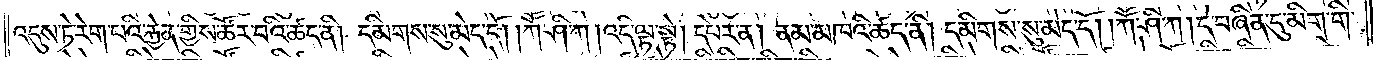འདུས་ཏེ་རེག་པའི་རྐྱེན་གྱིས་ཚོར་བའི་ཚད་ནི། དམིགས་སུ་མེད་དོ། །ཀཽ་ཤི་ཀ། འདི་ལྟ་སྟེ། དཔེར་ན། ནམ་མཁའི་ཚད་ནི། དམིགས་སུ་མེད་དོ། །ཀཽ་ཤི་ཀ། དེ་བཞིན་དུ་མིག་གི་
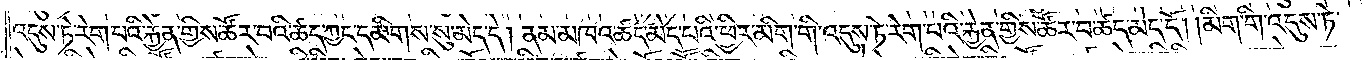འདུས་ཏེ་རེག་པའི་རྐྱེན་གྱིས་ཚོར་བའི་ཚད་ཀྱང་དམིགས་སུ་མེད་དེ། ནམ་མཁའ་ཚད་མེད་པའི་ཕྱིར་མིག་གི་འདུས་ཏེ་རེག་པའི་རྐྱེན་གྱིས་ཚོར་བ་ཚད་མེད་དོ། །མིག་གི་འདུས་ཏེ་
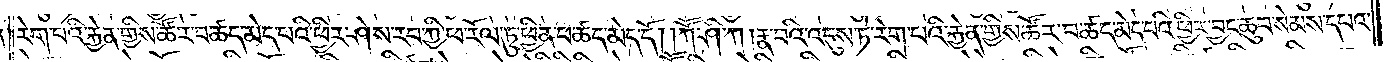རེག་པའི་རྐྱེན་གྱིས་ཚོར་བ་ཚད་མེད་པའི་ཕྱིར་ཤེས་རབ་ཀྱི་ཕ་རོལ་ཏུ་ཕྱིན་པ་ཚད་མེད་དོ། །ཀཽ་ཤི་ཀ །རྣ་བའི་འདུས་ཏེ་རེག་པའི་རྐྱེན་གྱིས་ཚོར་བ་ཚད་མེད་པའི་ཕྱིར་བྱང་ཆུབ་སེམས་དཔའ་
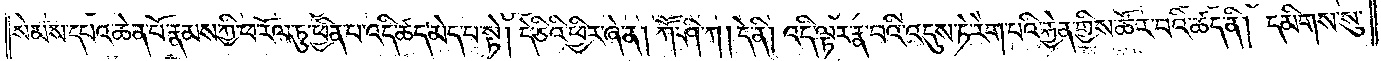སེམས་དཔའ་ཆེན་པོ་རྣམས་ཀྱི་ཕ་རོལ་ཏུ་ཕྱིན་པ་འདི་ཚད་མེད་པ་སྟེ། དེ་ཅིའི་ཕྱིར་ཞེ་ན། ཀཽ་ཤི་ཀ། དེ་ནི། འདི་ལྟར་རྣ་བའི་འདུས་ཏེ་རེག་པའི་རྐྱེན་གྱིས་ཚོར་བའི་ཚད་ནི། དམིགས་སུ་
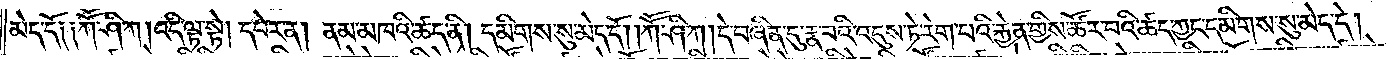མེད་དོ༑ ༑ཀཽ་ཤི་ཀ། འདི་ལྟ་སྟེ། དཔེར་ན། ནམ་མཁའི་ཚད་ནི། དམིགས་སུ་མེད་དོ། །ཀཽ་ཤི་ཀ། དེ་བཞིན་དུ་རྣ་བའི་འདུས་ཏེ་རེག་པའི་རྐྱེན་གྱིས་ཚོར་བའི་ཚད་ཀྱང་དམིགས་སུ་མེད་དེ།
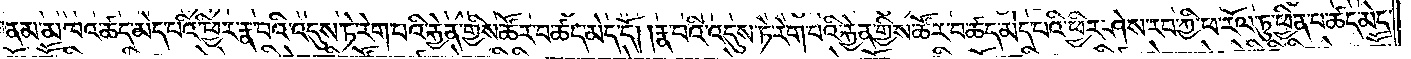ནམ་མཁའ་ཚད་མེད་པའི་ཕྱིར་རྣ་བའི་འདུས་ཏེ་རེག་པའི་རྐྱེན་གྱིས་ཚོར་བ་ཚད་མེད་དོ། །རྣ་བའི་འདུས་ཏེ་རེག་པའི་རྐྱེན་གྱིས་ཚོར་བ་ཚད་མེད་པའི་ཕྱིར་ཤེས་རབ་ཀྱི་ཕ་རོལ་ཏུ་ཕྱིན་པ་ཚད་མེད་
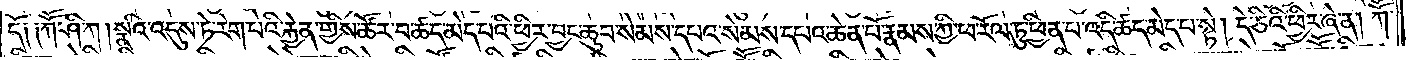དོ༑ ༑ཀཽ་ཤི་ཀ། སྣའི་འདུས་ཏེ་རེག་པའི་རྐྱེན་གྱིས་ཚོར་བ་ཚད་མེད་པའི་ཕྱིར་བྱང་ཆུབ་སེམས་དཔའ་སེམས་དཔའ་ཆེན་པོ་རྣམས་ཀྱི་ཕ་རོལ་ཏུ་ཕྱིན་པ་འདི་ཚད་མེད་པ་སྟེ། དེ་ཅིའི་ཕྱིར་ཞེ་ན། ཀཽ་
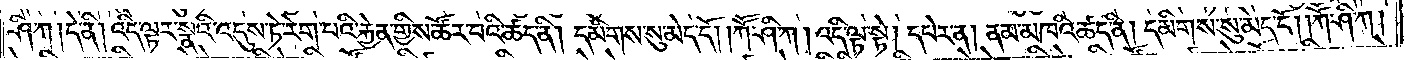ཤི་ཀ། དེ་ནི། འདི་ལྟར་སྣའི་འདུས་ཏེ་རེག་པའི་རྐྱེན་གྱིས་ཚོར་བའི་ཚད་ནི། དམིགས་སུ་མེད་དོ། །ཀཽ་ཤི་ཀ། འདི་ལྟ་སྟེ། དཔེར་ན། ནམ་མཁའི་ཚད་ནི། དམིགས་སུ་མེད་དོ། །ཀཽ་ཤི་ཀ།
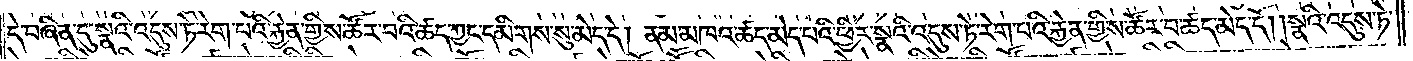དེ་བཞིན་དུ་སྣའི་འདུས་ཏེ་རེག་པའི་རྐྱེན་གྱིས་ཚོར་བའི་ཚད་ཀྱང་དམིགས་སུ་མེད་དེ། ནམ་མཁའ་ཚད་མེད་པའི་ཕྱིར་སྣའི་འདུས་ཏེ་རེག་པའི་རྐྱེན་གྱིས་ཚོར་བ་ཚད་མེད་དོ། །སྣའི་འདུས་ཏེ་
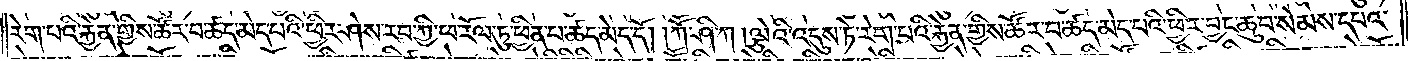རེག་པའི་རྐྱེན་གྱིས་ཚོར་བ་ཚད་མེད་པའི་ཕྱིར་ཤེས་རབ་ཀྱི་ཕ་རོལ་ཏུ་ཕྱིན་པ་ཚད་མེད་དོ། །ཀཽ་ཤི་ཀ། ལྕེའི་འདུས་ཏེ་རེག་པའི་རྐྱེན་གྱིས་ཚོར་བ་ཚད་མེད་པའི་ཕྱིར་བྱང་ཆུབ་སེམས་དཔའ་
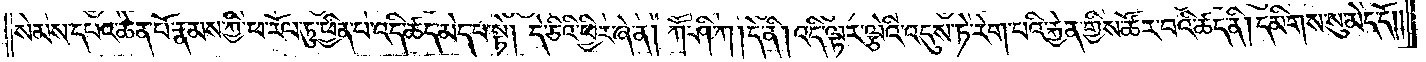སེམས་དཔའ་ཆེན་པོ་རྣམས་ཀྱི་ཕ་རོལ་ཏུ་ཕྱིན་པ་འདི་ཚད་མེད་པ་སྟེ། དེ་ཅིའི་ཕྱིར་ཞེ་ན། ཀཽ་ཤི་ཀ། དེ་ནི། འདི་ལྟར་ལྕེའི་འདུས་ཏེ་རེག་པའི་རྐྱེན་གྱིས་ཚོར་བའི་ཚད་ནི། དམིགས་སུ་མེད་དོ༎
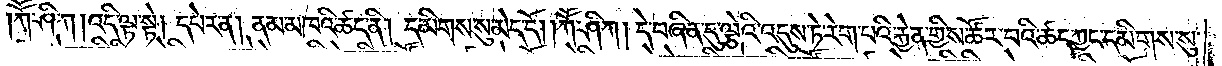ཀཽ་ཤི་ཀ། འདི་ལྟ་སྟེ། དཔེར་ན། ནམ་མཁའི་ཚད་ནི། དམིགས་སུ་མེད་དོ། །ཀཽ་ཤི་ཀ། དེ་བཞིན་དུ་ལྕེའི་འདུས་ཏེ་རེག་པའི་རྐྱེན་གྱིས་ཚོར་བའི་ཚད་ཀྱང་དམིགས་སུ་
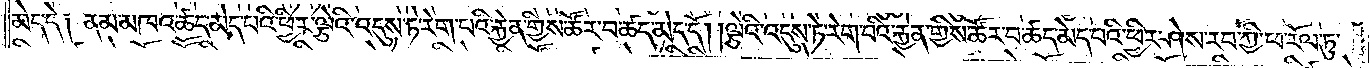མེད་དེ། ནམ་མཁའ་ཚད་མེད་པའི་ཕྱིར་ལྕེའི་འདུས་ཏེ་རེག་པའི་རྐྱེན་གྱིས་ཚོར་བ་ཚད་མེད་དོ། །ལྕེའི་འདུས་ཏེ་རེག་པའི་རྐྱེན་གྱིས་ཚོར་བ་ཚད་མེད་པའི་ཕྱིར་ཤེས་རབ་ཀྱི་ཕ་རོལ་ཏུ་
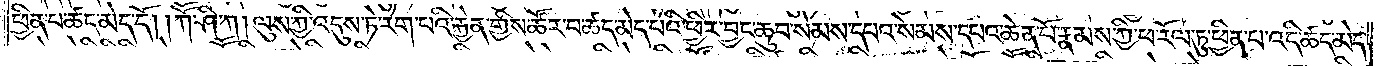ཕྱིན་པ་ཚད་མེད་དོ། །ཀཽ་ཤི་ཀ། ལུས་ཀྱི་འདུས་ཏེ་རེག་པའི་རྐྱེན་གྱིས་ཚོར་བ་ཚད་མེད་པའི་ཕྱིར་བྱང་ཆུབ་སེམས་དཔའ་སེམས་དཔའ་ཆེན་པོ་རྣམས་ཀྱི་ཕ་རོལ་ཏུ་ཕྱིན་པ་འདི་ཚད་མེད་
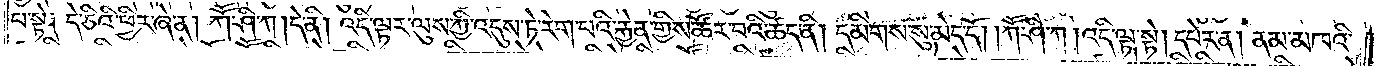པ་སྟེ། དེ་ཅིའི་ཕྱིར་ཞེ་ན། ཀཽ་ཤི་ཀ །དེ་ནི། འདི་ལྟར་ལུས་ཀྱི་འདུས་ཏེ་རེག་པའི་རྐྱེན་གྱིས་ཚོར་བའི་ཚད་ནི། དམིགས་སུ་མེད་དོ། །ཀཽ་ཤི་ཀ། འདི་ལྟ་སྟེ། དཔེར་ན། ནམ་མཁའི་
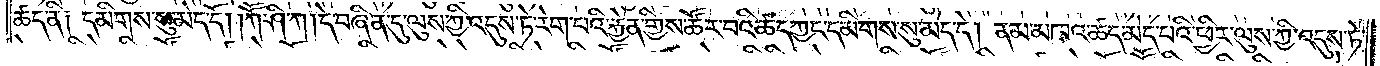ཚད་ནི། དམིགས་སུ་མེད་དོ། །ཀཽ་ཤི་ཀ། དེ་བཞིན་དུ་ལུས་ཀྱི་འདུས་ཏེ་རེག་པའི་རྐྱེན་གྱིས་ཚོར་བའི་ཚད་ཀྱང་དམིགས་སུ་མེད་དེ། ནམ་མཁའ་ཚད་མེད་པའི་ཕྱིར་ལུས་ཀྱི་འདུས་ཏེ་
